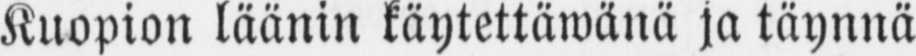Kuopion läänin käytettäwänä ja täynnä
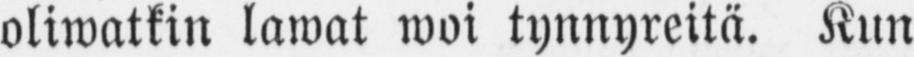oliwatkin lawat woi tynnyreitä. Kun
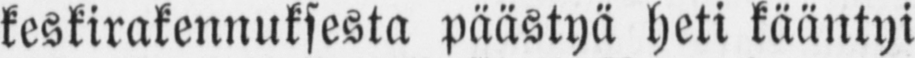keskirakennuksesta päästyä heti kääntyi
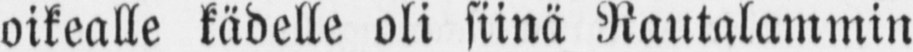oikealle kädelle oli siinä Rautalammin
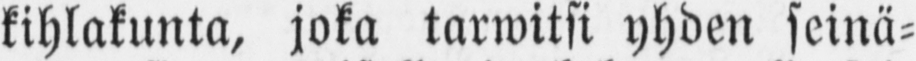kihlakunta, joka tarwitsi yhden seinä-
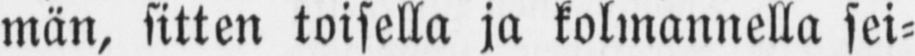män, sitten toisella ja kolmannella sei-
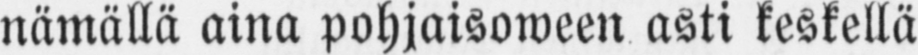nämällä aina pohjaisoween asti keskellä
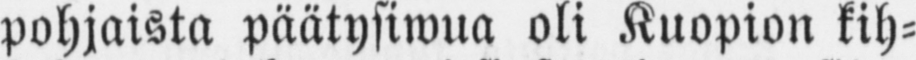pohjaista päätysiwua oli Kuopion kih-
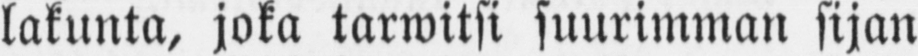lakunta, joka tarwitsi suurimman sijan
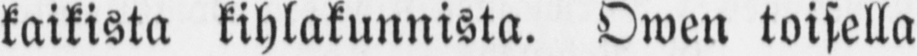kaikista kihlakunnista. Owen toisella
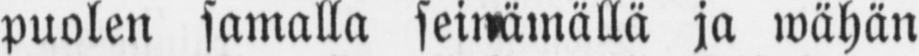puolen samalla seinämällä ja wähän
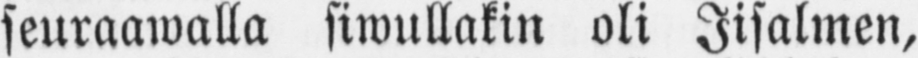seuraawalla siwallakin oli Iisalmen,
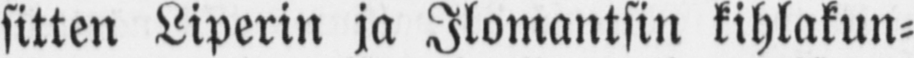sitten Liperin ja Ilomantsin kihlakun-
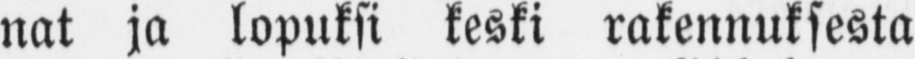nat ja lopuksi keski rakennuksesta
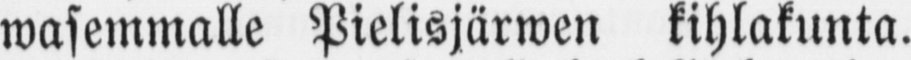wasemmalle Pielisjärwen kihlakunta.
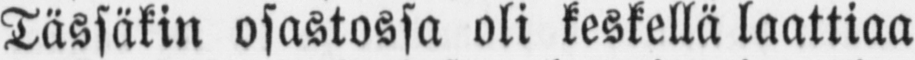Tässäkin osastossa oli keskellä laattiaa
